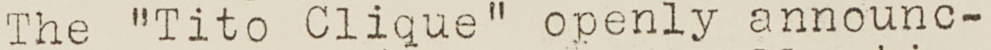The "Tito Clique" openly announc-
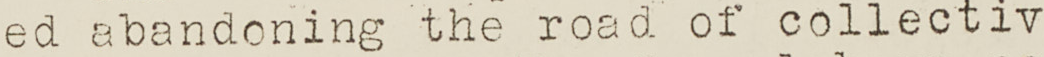ed abandoning the road of collectiv
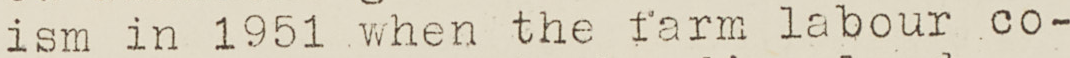ism in 1951 when the farm labour co-
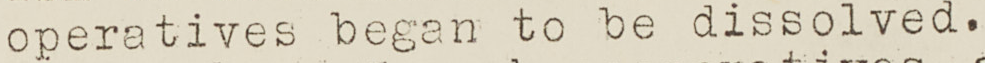operatives began to be dissolved.
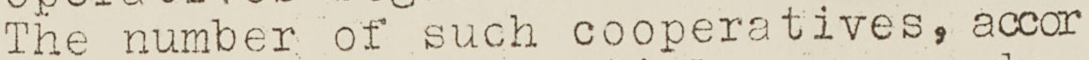The number of such cooperatives, accor
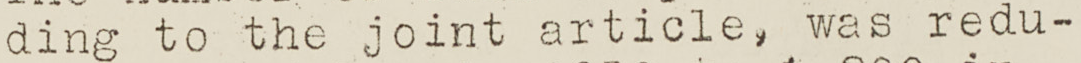ding to the joint article, was redu-
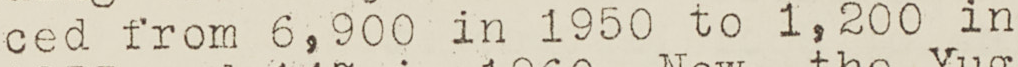ced from 6,900 in 1950 to 1,200 in
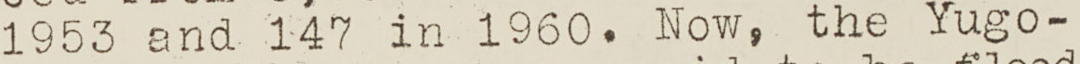1953 and 147 in 1960. Now, the Yugo--
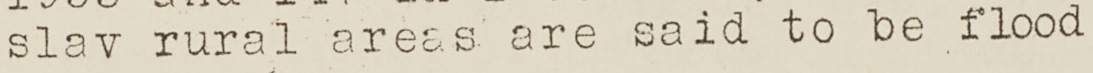slav rural areas are said to be flood
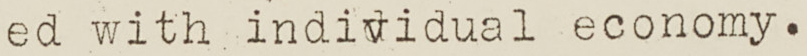ed with individual economy.
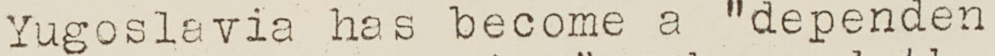Yugoslavia has become a "dependen
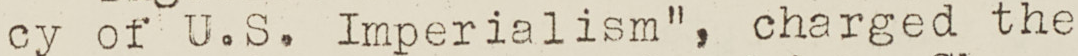cy of U.S. Imperialism", charged the
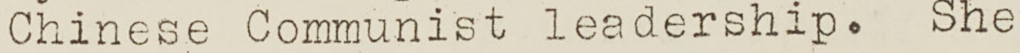Chinese Communist leadership. She
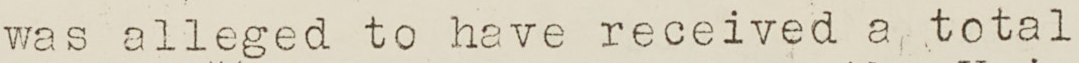was alleged to have received a total
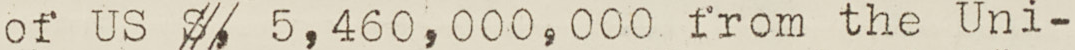of US $, 5,460,000,000 from the Uni-
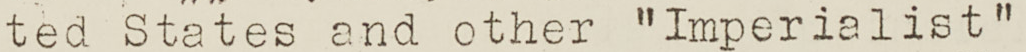ted States and other "Imperialist"
